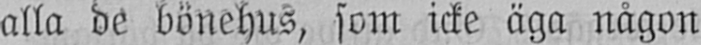alla de bönehus, som icke äga någon
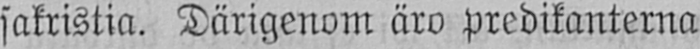sakristia. Därigenom äro predikanterna
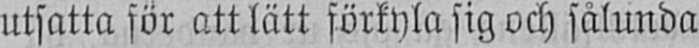utsatta för att lätt förkyla sig och sålunda
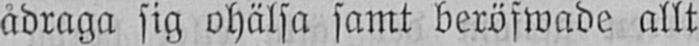ådraga sig ohälsa samt beröfwade allt
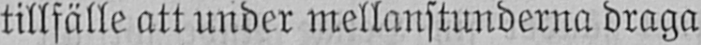tillfälle att under mellanstunderna draga
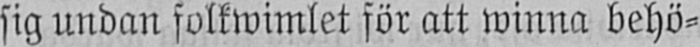sig undan folkwimlet för att winna behö-
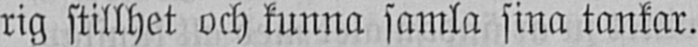rig stillhet och kunna samla sina tankar.
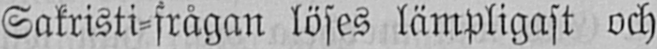Sakristi-frågan löses lämpligast och
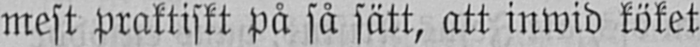mest praktiskt på så sätt, att inwid köket
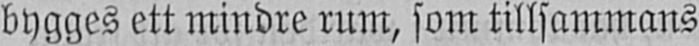bygges ett mindre rum, som tillsammans
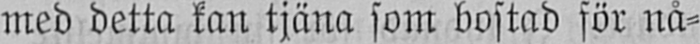med detta kan tjäna som bostad för nå-
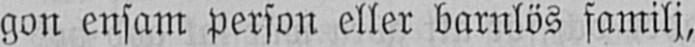gon ensam person eller barnlös familj,
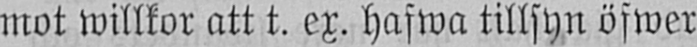mot willkor att t. ex. hafwa tillsyn öfwer
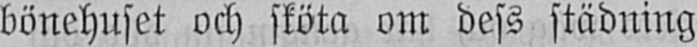bönehuset och sköta om dess städning
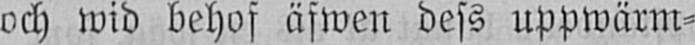och wid behof äfwen dess uppwärm-
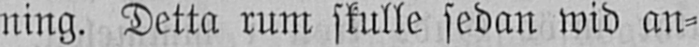ning. Detta rum skulle sedan wid an-
